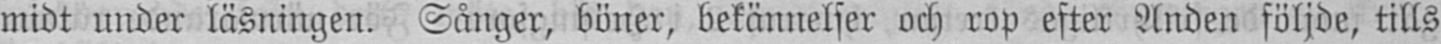midt under läsningen. Sånger, böner, bekännelser och rop efter Anden följde, tills
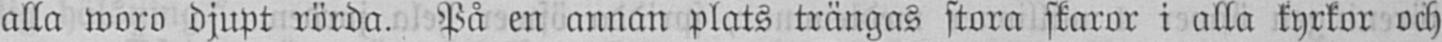alla woro djupt rörda. På en annan plats trängas stora skaror i alla kyrkor och
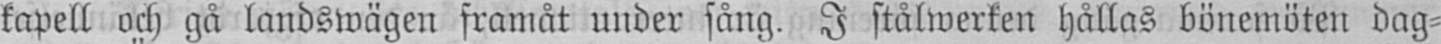kapell och gå landswägen framåt under sång. I stålwerken hållas bönemöten dag-
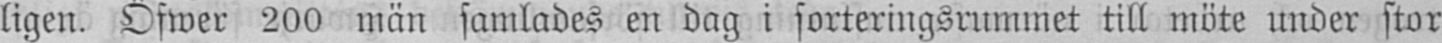ligen. Öfwer 200 män samlades en dag i sorteringsrummet till möte under stor
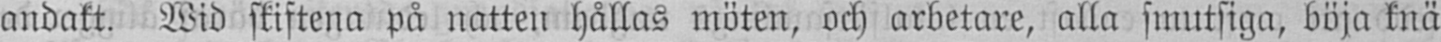andakt. Vid skiftena på natten hållas möten, och arbetare, alla smutsiga, böja knä
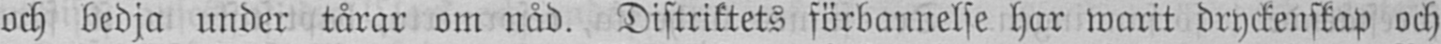och bedja under tårar om nåd. Distriktets förbannelse har warit dryckenskap och
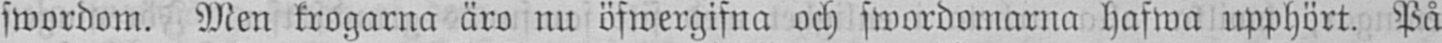swordom. Men krogarna äro nu öfwergifna och swordomarna hafwa upphört. På
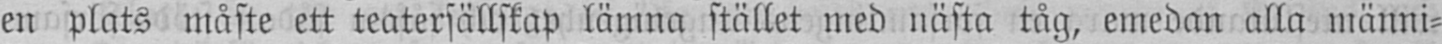en plats måste ett teatersällskap lämna stället med nästa tåg, emedan alla männi-
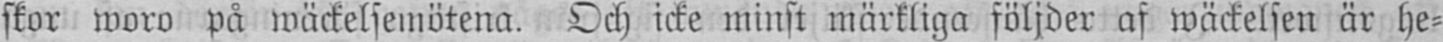skor woro på wäckelsemötena. Och icke minst märkliga följder af wäckelsen är he-
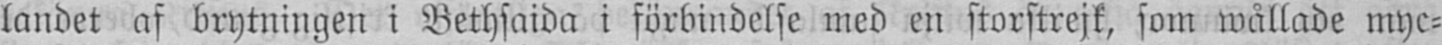landet af brytningen i Bethsaida i förbindelse med en storstrejk, som wållade myc-
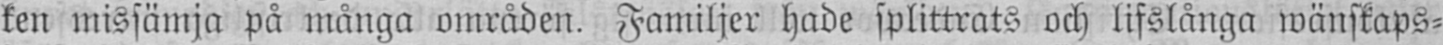ken missämja på många områden. Familjer hade splittrats och lifslånga wänskaps-
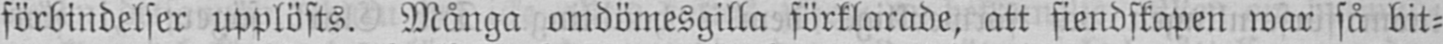förbindelser upplösts. Många omdömesgilla förklarade, att fiendskapen war så bit-
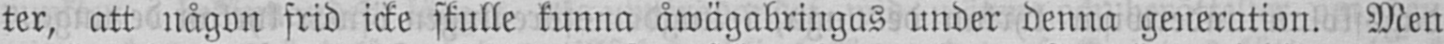ter, att någon frid icke skulle kunna åwägabringas under denna generation. Men
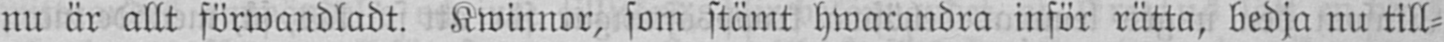nu är allt förwandladt. Kwinnor, som stämt hwarandra inför rätta, bedja nu till-
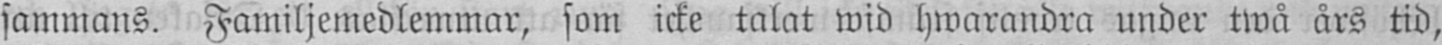sammans. Familjemedlemmar, som icke talat wid hwarandra under twå års tid,
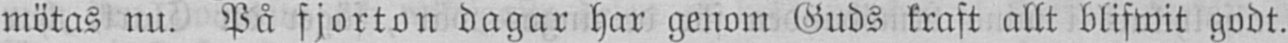mötas nu. På fjorton dagar har genom Guds kraft allt blifwit godt.
